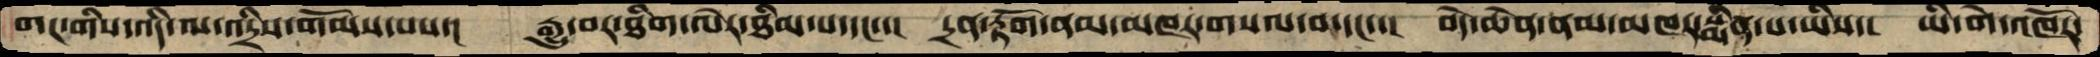གང་གིས་འདི་ལ་འདྲིས་གོམས་པས་།   རྒྱུ་བར་ཐིག་ལེར་ཐིམ་པ་དང་་།  དྲན་རྟོག་ནམ་མཁར་གསལ་བ་དང་་།  བདེ་ཆེན་ནམ་མཁར་སྨིན་པ་ཡིས་།  ཡི་གེ་འཁོར་
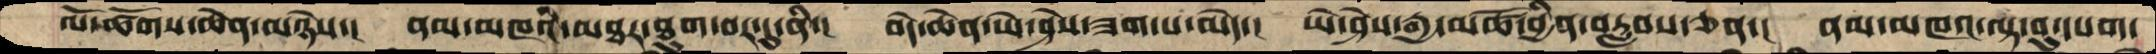ལོ་ཚོགས་ཆེན་མཉེས་།  ནམ་མཁའི་མཐར་ཐུག་བར་དུ་ནི་།  བདེ་ཆེན་ཡེ་ཤེས་ཟག་པ་མེད་།  ཡེ་ཤེས་རྒྱ་མཚོ་བྱིན་བརླབས་ཅན་།  ནམ་མཁའ་ལྟ་བུ་དཔག་
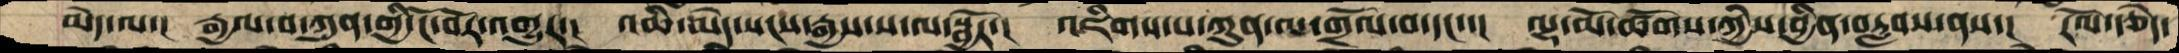མེད་ལ་།  རྒྱལ་བ་ཀུན་གྱི་ངོ་བོར་འགྱུར་།  འཆི་མེད་སངས་རྒྱས་ས་ལ་སྦྱོར་།  འཇིགས་པ་ཀུན་ལ་གྲོལ་བ་དང་་།  ལྷ་མོ་ཚོགས་ཀྱིས་བྱིན་བརླབས་ནས་།  རོལ་རྩེད་
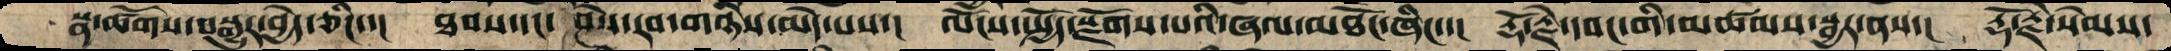སྣ་ཚོགས་བསྒྱུར་བྱེད་ཅིང་་།  ཐབས་དང་ ཤེས་རབ་གཉིས་མེད་པས་།  ལོངས་སྤྱོད་སྫོགས་པའི་ཞལ་མཐོང་ཞིང་་།  རྡོ་རྗེ་དབང་གི་མཚམས་སྦྱར་ནས་།  རྡོ་རྗེ་སེམས་
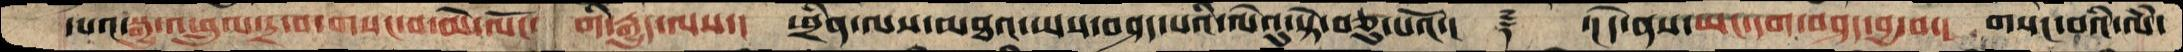དཔའ་སྒྱུ་འཕྲུལ་དྲ་བ་གསང་བ་མེ་ལོང་  གི་རྒྱུད་ལས་།  ཕྲིན་ལས་མཐའ་ཡས་བཤད་པའི་ལེའུ་སྟེ་བཅུ་པའོ་།    ࿑  ་།དེ་ནས་ཡང་དག་བཤད་བྱ་བ་།  གསང་བའི་ལཾ་
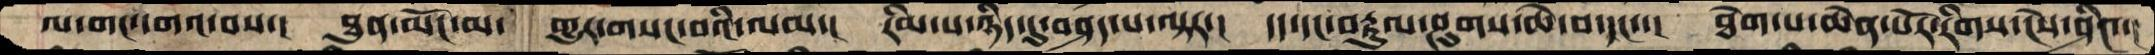ལ་གང་དགའ་བས་།  ཐུན་མོང་མ་ གྱུར་གསང་བའི་ལམ་།  རིམ་པ་ཉིད་དུ་བཤད་པ་ལྟར་།  དད་དང་བརྟུལ་ཤུགས་ཆེ་བ་དང་་།  ཐེག་པ་ཆེན་པོར་རིགས་ངེས་ཤིང་་།
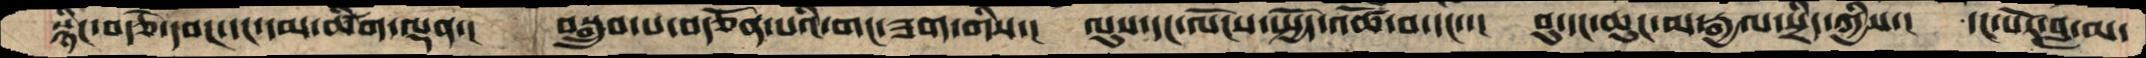སྙིང་བརྩེ་དབང་དང་དམ་ཚིག་ལྡན་།  བསྒྲུབ་པ་བརྩོན་པའི་གང་ཟག་གིས་།  ལུས་དང་ལོངས་སྤྱོད་འཚོ་བ་དང་་།  བུ་དང་ཆུང་མ་རྒྱལ་སྲིད་ཀྱིས་།  དང་པོར་བླ་མ་
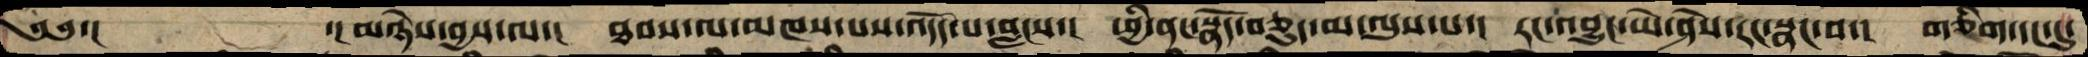༄༅་།         ་།མཉེས་བྱས་ལ་།  ཐབས་ལ་མཁས་པས་འདོད་པ་བླངས་།  ཕྱི་ནང་སྣོད་བཅུད་མ་ལུས་པ་།  རང་བྱུང་ཡེ་ཤེས་རང་སྣང་བ་།  གཅིག་དང་དུ་
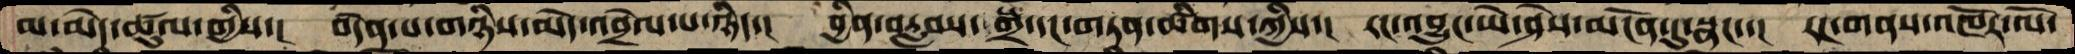མ་མེད་ཚུལ་གྱིས་།  བདེན་པ་གཉིས་མེད་འབྲེལ་པ་ཉིད་།  བྱིན་བརླབས་སྒྲ་དང་གཏན་ཚིགས་ཀྱིས་།  རང་འབྱུང་ཡེ་ཤེས་མངོན་དུ་སྣང་་།   རང་གནས་འཁོར་ལོ་
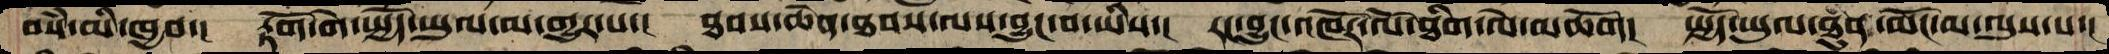བསཾ་མི་ཁྱབ་།  རྟོག་གེ་སྤྱོད་ཡུལ་མ་གྱུར་པ་།  ཐབས་ཆེན་ཐབས་ལས་བྱུང་བ་ཡིས་།  རང་བྱུང་འཁོར་ལོ་ཐིག་ལེ་མཆོག།  སྤྱོད་ཡུལ་ཐུན་མོང་མ་ལུས་པ་།
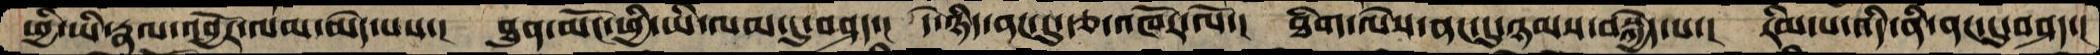ཕྱི་ཡི་རྣལ་འབྱོར་ལམ་མེད་པས་།  ཐུན་མོང་ཕྱི་ཡི་ལམ་དུ་བཤད་།  དེ་ཉིད་ནང་དུ་རྩ་འཁོར་ལོ་།  ཐིག་ལེས་ནང་དུ་ཉམས་བསྐྱེད་པ་།  རིམ་པ་འདི་ནི་ནང་དུ་བཤད་།
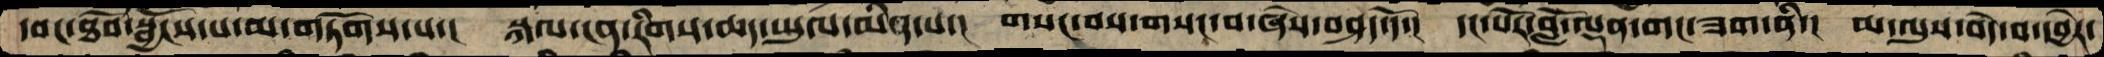དབང་ཐོབ་སྦྱོངས་པ་མ་གཏོགས་པ་།  སྐལ་ངན་རིགས་ཆད་ཡུལ་མིན་པ་།  གསང་བས་གསང་བ་ཞེས་བཤད་དོ་།  དང་པོར་བློ་ལྡན་གང་ཟག་ནི་།  མ་ལུས་བདེ་བ་དབྱེར་
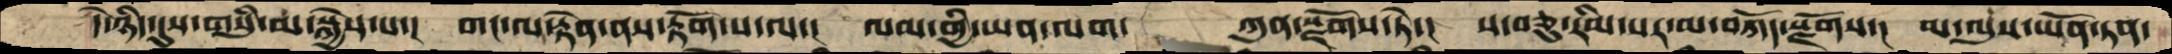དེ་ཉིད་དུས་གསུཾ་མ་སྐྱེས་པ་།  གང་ལ་རྟེན་ནས་རྟོག་པ་ལ་།  ལམ་གྱི་ཡན་ལག་   ཀུན་སྫོགས་ཏེ་།  ས་བཅུ་རིམ་པར་མ་བཀོད་སྫོགས་།  མ་ལུས་ཡོན་ཏན་
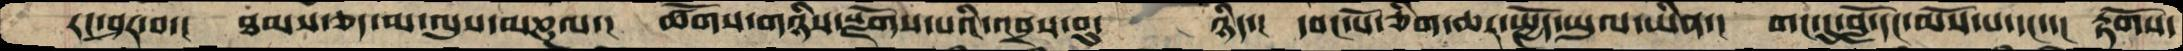རང་ཤར་བ་།  ཐམས་ཅད་མ་ལུས་མཎྜལ་།  ཚོགས་གཉིས་སྫོགས་པའི་འབྲས་བུ་    ཉིད་།  དབང་པོ་ཅིག་ཆར་སྤྱོད་ཡུལ་ཡིན་།  གང་དུ་བློ་དང་མོས་པ་དང་་།  རྟོགས་
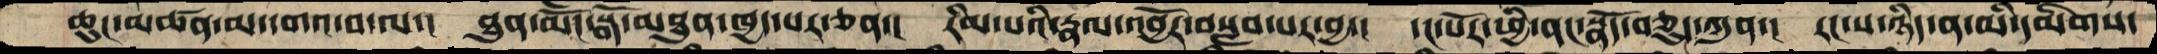ཆུང་མཚན་མ་དགའ་བ་ལ་།  ཐུན་མོང་སྒོ་མཐུན་ཁྱད་པར་ཅན་།  རིམ་པའི་རྣལ་འབྱོར་བསླབ་པར་བྱ་།  དང་པོར་ཕྱི་ནང་སྣོད་བཅུད་ཀུན་།  རང་ས་ཉིད་ན་མི་དམིགས་
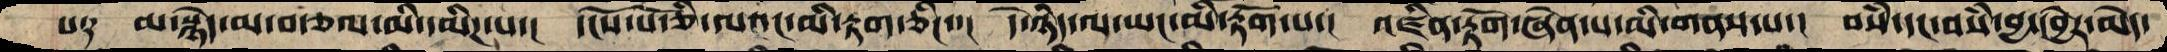པ༑  མ་སྙེད་མ་བརྩལ་མི་དམིཌ་པ་།  དངོས་པོ་ཅི་ལའང་མི་རྟག་ཅིང་་།  དེ་ཉིད་ལ་ཡང་མི་རྟོག་པ་།  འཛིན་རྟོག་ཞེན་པ་མི་གནས་པ་།  བསཾ་དང་བསཾ་བྱ་དབྱེར་མེད་
